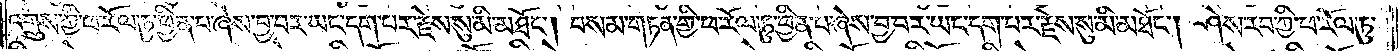འགྲུས་ཀྱི་ཕ་རོལ་ཏུ་ཕྱིན་པ་ཞེས་བྱ་བར་ཡང་དག་པར་རྗེས་སུ་མི་མཐོང༌། བསམ་གཏན་གྱི་ཕ་རོལ་ཏུ་ཕྱིན་པ་ཞེས་བྱ་བར་ཡང་དག་པར་རྗེས་སུ་མི་མཐོང༌། ཤེས་རབ་ཀྱི་ཕ་རོལ་ཏུ་
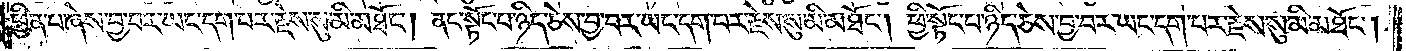ཕྱིན་པ་ཞེས་བྱ་བར་ཡང་དག་པར་རྗེས་སུ་མི་མཐོང༌། ནང་སྟོང་པ་ཉིད་ཅེས་བྱ་བར་ཡང་དག་པར་རྗེས་སུ་མི་མཐོང༌། ཕྱི་སྟོང་པ་ཉིད་ཅེས་བྱ་བར་ཡང་དག་པར་རྗེས་སུ་མི་མཐོང༌།
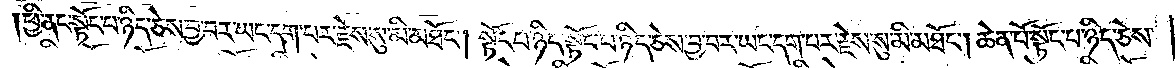ཕྱི་ནང་སྟོང་པ་ཉིད་ཅེས་བྱ་བར་ཡང་དག་པར་རྗེས་སུ་མི་མཐོང༌། སྟོང་པ་ཉིད་སྟོང་པ་ཉིད་ཅེས་བྱ་བར་ཡང་དག་པར་རྗེས་སུ་མི་མཐོང༌། ཆེན་པོ་སྟོང་པ་ཉིད་ཅེས་
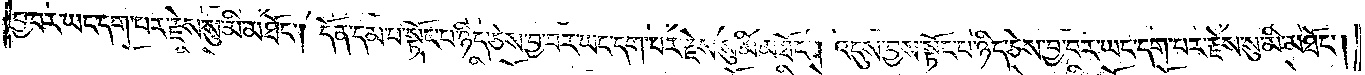བྱ་བར་ཡང་དག་པར་རྗེས་སུ་མི་མཐོང༌། དོན་དམ་པ་སྟོང་པ་ཉིད་ཅེས་བྱ་བར་ཡང་དག་པར་རྗེས་སུ་མི་མཐོང༌། འདུས་བྱས་སྟོང་པ་ཉིད་ཅེས་བྱ་བར་ཡང་དག་པར་རྗེས་སུ་མི་མཐོང༌།
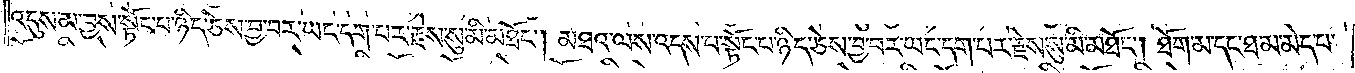འདུས་མ་བྱས་སྟོང་བ་ཉིད་ཅེས་བྱ་བར་ཡང་དག་པར་རྗེས་སུ་མི་མཐོང༌། མཐའ་ལས་འདས་པ་སྟོང་པ་ཉིད་ཅེས་བྱ་བར་ཡང་དག་པར་རྗེས་སུ་མི་མཐོང༌། ཐོག་མ་དང་ཐ་མ་མེད་པ་
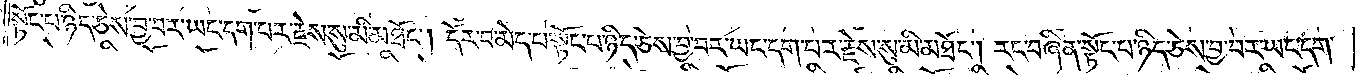སྟོང་པ་ཉིད་ཅེས་བྱ་བར་ཡང་དག་པར་རྗེས་སུ་མི་མཐོང༌། དོར་བ་མེད་པ་སྟོང་པ་ཉིད་ཅེས་བྱ་བར་ཡང་དག་པར་རྗེས་སུ་མི་མཐོང༌། རང་བཞིན་སྟོང་པ་ཉིད་ཅེས་བྱ་བར་ཡང་དག་
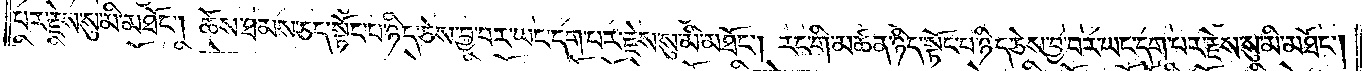པར་རྗེས་སུ་མི་མཐོང༌། ཆོས་ཐམས་ཅད་སྟོང་པ་ཉིད་ཅེས་བྱ་བར་ཡང་དག་པར་རྗེས་སུ་མི་མཐོང༌། རང་གི་མཚན་ཉིད་སྟོང་པ་ཉིད་ཅེས་བྱ་བར་ཡང་དག་པར་རྗེས་སུ་མི་མཐོང༌།
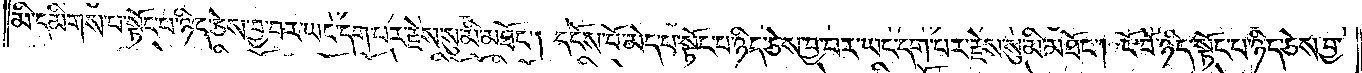མི་དམིགས་པ་སྟོང་པ་ཉིད་ཅེས་བྱ་བར་ཡང་དག་པར་རྗེས་སུ་མི་མཐོང༌། དངོས་པོ་མེད་པ་སྟོང་པ་ཉིད་ཅེས་བྱ་བར་ཡང་དག་པར་རྗེས་སུ་མི་མཐོང༌། ངོ་བོ་ཉིད་སྟོང་པ་ཉིད་ཅེས་བྱ་
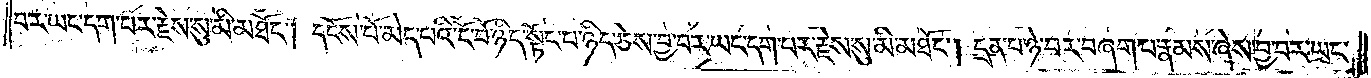བར་ཡང་དག་པར་རྗེས་སུ་མི་མཐོང༌། དངོས་པོ་མེད་པའི་ངོ་བོ་ཉིད་སྟོང་པ་ཉིད་ཅེས་བྱ་བར་ཡང་དག་པར་རྗེས་སུ་མི་མཐོང༌། དྲན་པ་ཉེ་བར་བཞག་པ་རྣམས་ཞེས་བྱ་བར་ཡང་
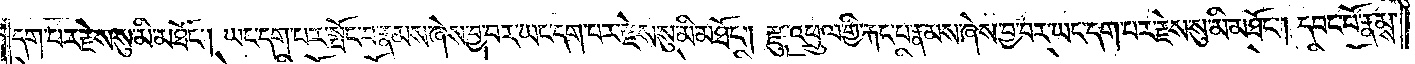དག་པར་རྗེས་སུ་མི་མཐོང༌། ཡང་དག་པར་སྤོང་བ་རྣམས་ཞེས་བྱ་བར་ཡང་དག་པར་རྗེས་སུ་མི་མཐོང༌། རྫུ་འཕྲུལ་གྱི་རྐང་པ་རྣམས་ཞེས་བྱ་བར་ཡང་དག་པར་རྗེས་སུ་མི་མཐོང༌། དབང་པོ་རྣམས་
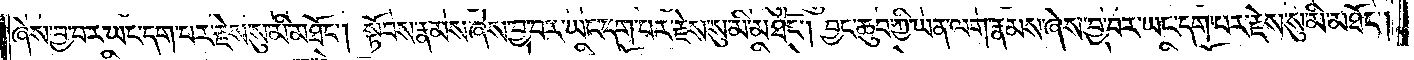ཞེས་བྱ་བར་ཡང་དག་པར་རྗེས་སུ་མི་མཐོང༌། སྟོབས་རྣམས་ཞེས་བྱ་བར་ཡང་དག་པར་རྗེས་སུ་མི་མཐོང༌། བྱང་ཆུབ་ཀྱི་ཡན་ལག་རྣམས་ཞེས་བྱ་བར་ཡང་དག་པར་རྗེས་སུ་མི་མཐོང༌།
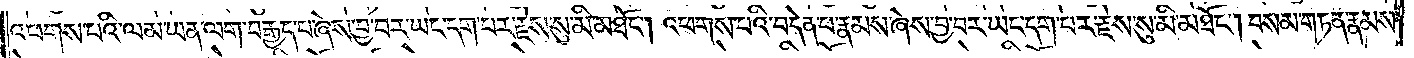འཕགས་པའི་ལམ་ཡན་ལག་བརྒྱད་པ་ཞེས་བྱ་བར་ཡང་དག་པར་རྗེས་སུ་མི་མཐོང༌། འཕགས་པའི་བདེན་པ་རྣམས་ཞེས་བྱ་བར་ཡང་དག་པར་རྗེས་སུ་མི་མཐོང༌། བསམ་གཏན་རྣམས་
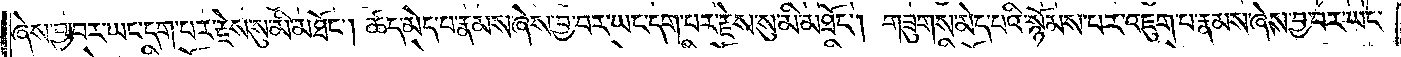ཞེས་བྱ་བར་ཡང་དག་པར་རྗེས་སུ་མི་མཐོང༌། ཚད་མེད་པ་རྣམས་ཞེས་བྱ་བར་ཡང་དག་པར་རྗེས་སུ་མི་མཐོང༌། གཟུགས་མེད་པའི་སྙོམས་པར་འཇུག་པ་རྣམས་ཞེས་བྱ་བར་ཡང་
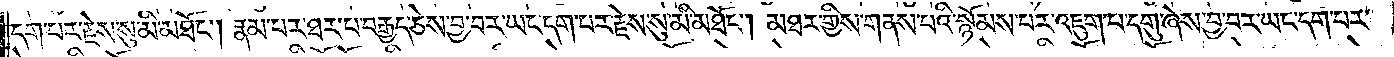དག་པར་རྗེས་སུ་མི་མཐོང༌། རྣམ་པར་ཐར་པ་བརྒྱད་ཅེས་བྱ་བར་ཡང་དག་པར་རྗེས་སུ་མི་མཐོང༌། མཐར་གྱིས་གནས་པའི་སྙོམས་པར་འཇུག་པ་དགུ་ཞེས་བྱ་བར་ཡང་དག་པར་
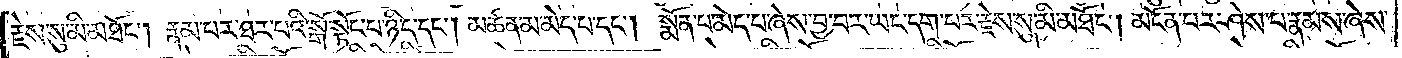རྗེས་སུ་མི་མཐོང༌། རྣམ་པར་ཐར་པའི་སྒོ་སྟོང་པ་ཉིད་དང༌། མཚན་མ་མེད་པ་དང༌། སྨོན་པ་མེད་པ་ཞེས་བྱ་བར་ཡང་དག་པར་རྗེས་སུ་མི་མཐོང༌། མངོན་པར་ཤེས་པ་རྣམས་ཞེས་
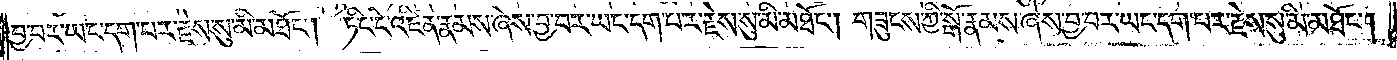བྱ་བར་ཡང་དག་པར་རྗེས་སུ་མི་མཐོང༌། ཏིང་ངེ་འཛིན་རྣམས་ཞེས་བྱ་བར་ཡང་དག་པར་རྗེས་སུ་མི་མཐོང༌། གཟུངས་ཀྱི་སྒོ་རྣམས་ཞེས་བྱ་བར་ཡང་དག་པར་རྗེས་སུ་མི་མཐོང༌།
